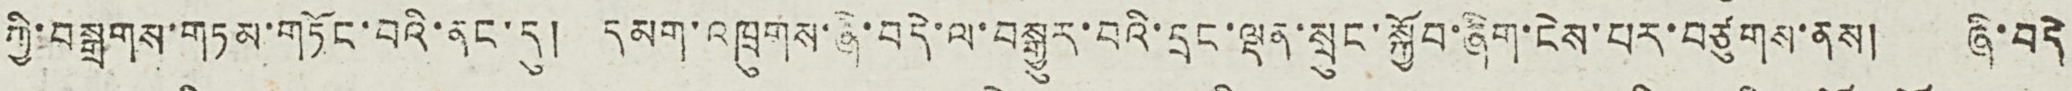ཀྱི་བསྒྲགས་གཏམ་གཏོང་བའི་ནང་དུ། དམག་འཁྲུགས་ཞེ་བདེ་ལ་བསྒྱུར་བའི་དྲང་ལྡན་སྲུང་སྐྱོབ་ཞིག་ངེས་པར་བཙུགས་ནས། ཞི་བདེ
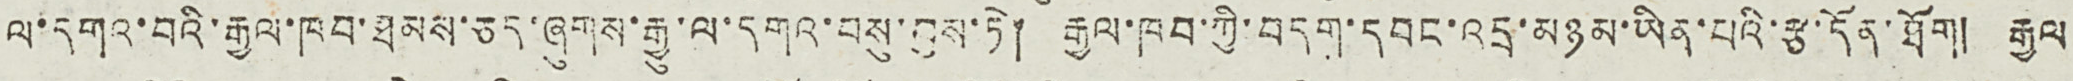ལ་དགའ་བའི་རྒྱལ་ཁབ་ཐམས་ཅད་ཞུགས་རྒྱུ་ལ་དགའ་བསུ་བྱས་ཏེ། རྒྱལ་ཁབ་ཀྱི་བདག་དབང་འདྲ་མཉམ་ཡིན་པའི་རྩ་དོན་ཐོག། རྒྱལ
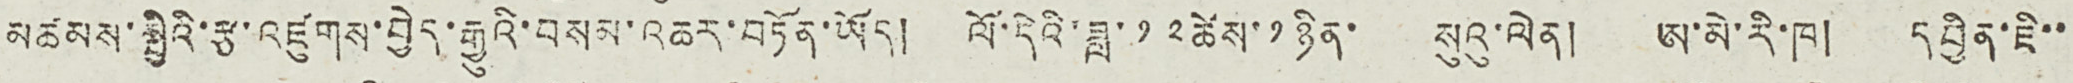མཚམས་སྤྱིའི་རྩ་འཛུགས་བྱེད་རྒྱུའི་བསམ་འཆར་བཏོན་ཡོད། ལོ་དེའི་ཟླ་ ༡༢ ཚེས་ ༡ ཉིན་ སུའུ་ལེན། ཨ་མེ་རི་ཁ། དབྱིན་ཇི་་
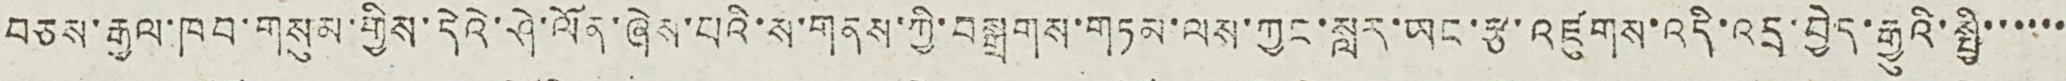བཅས་རྒྱལ་ཁབ་གསུམ་གྱིས་དེའི་ཤེ་ལོན་ཞེས་པའི་ས་གནས་ཀྱི་བསྒྲགས་གཏམ་ལས་ཀྱང་སླར་ཡང་རྩ་འཛུགས་འདི་འདྲ་བྱེད་རྒྱུའི་སྤྱི་་་་་་
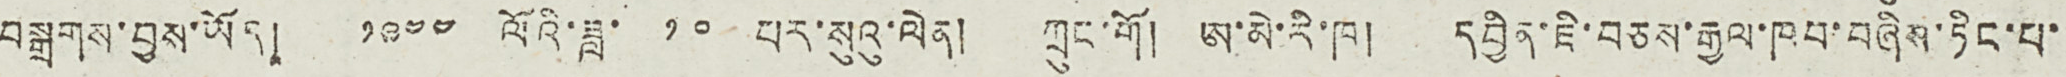བསྒྲགས་བྱས་ཡོད། ༡༩༤༤ ལོའི་ཟླ་ ༡༠ པར་སུའུ་ལེན། ཀྲུང་གོ། ཨ་མེ་རི་ཁ། དབྱིན་ཇི་བཅས་རྒྱལ་ཁབ་བཞིས་ཏིང་པ་
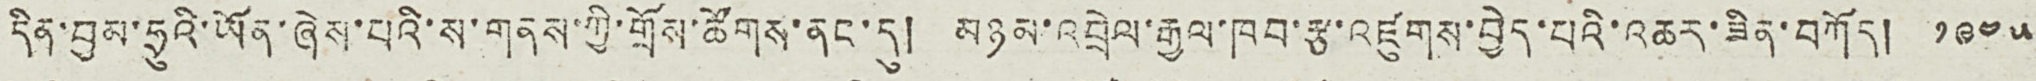དིན་བྱམ་ཧྲུའི་ཡོན་ཞེས་པའི་ས་གནས་ཀྱི་གྲོས་ཚོགས་ནང་དུ། མཉམ་འབྲེལ་རྒྱལ་ཁབ་རྩ་འཛུགས་བྱེད་པའི་འཆར་ཟིན་བཀོད། ༡༩༤༥
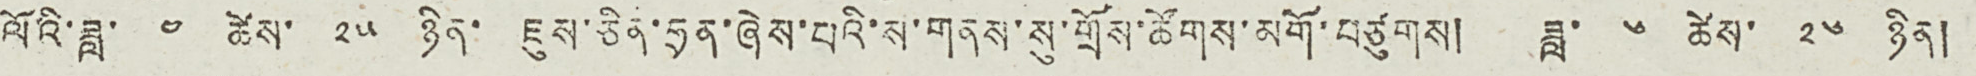ལོའི་ཟླ་ ༤ ཚེས་ ༢༥ ཉིན་ ཇུས་ཅིན་ཧྲན་ཞེས་པའི་ས་གནས་སུ་གྲོས་ཚོགས་མགོ་བཙུགས། ཟླ་ ༦ ཚེས་ ༢༦ ཉིན།
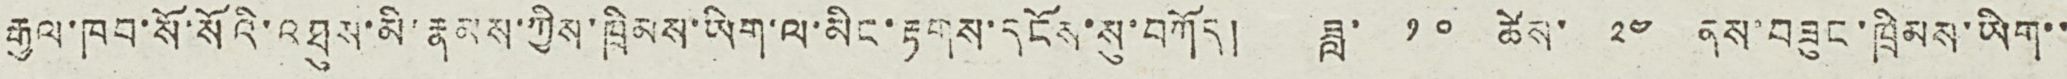རྒྱལ་ཁབ་སོ་སོའི་འཐུས་མི་རྣམས་ཀྱིས་ཁྲིམས་ཡིག་ལ་མིང་རྟགས་དངོས་སུ་བཀོད། ཟླ་ ༡༠ ཚེས་ ༢༤ ནས་བཟུང་ཁྲིམས་ཡིག་་
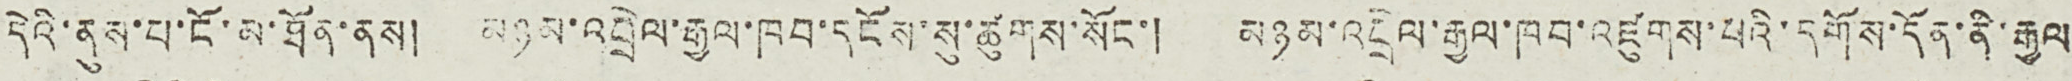དེའི་ནུས་པ་ངོ་མ་ཐོན་ནས། མཉམ་འབྲེལ་རྒྱལ་ཁབ་དངོས་སུ་ཚུགས་སོང་། མཉམ་འབྲེལ་རྒྱལ་ཁབ་འཛུགས་པའི་དགོས་དོན་ནི་རྒྱལ
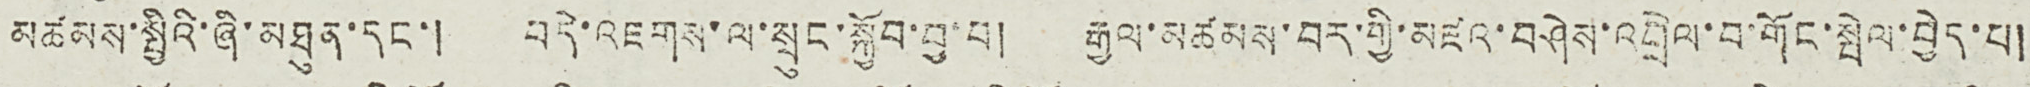མཚམས་སྤྱིའི་ཞི་མཐུན་དང་། བདེ་འཇགས་ལ་སྲུང་སྐྱོབ་བྱ་བ། རྒྱལ་མཚམས་བར་གྱི་མཛའ་བཤེས་འབྲེལ་བ་གོང་སྤེལ་བྱེད་པ།
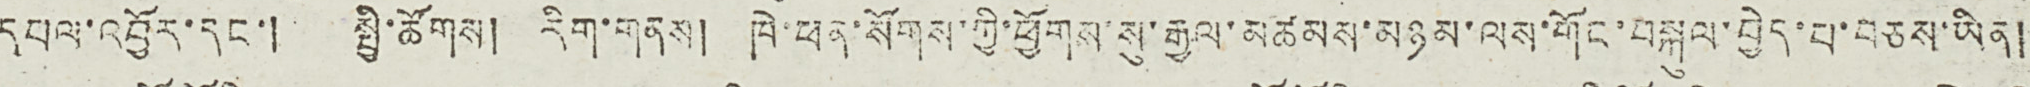དཔལ་འབྱོར་དང་། སྤྱི་ཚོགས། རིག་གནས། ཁེ་ཕན་སོགས་ཀྱི་ཕྱོགས་སུ་རྒྱལ་མཚམས་མཉམ་ལས་གོང་བསྐུལ་བྱེད་པ་བཅས་ཡིན།
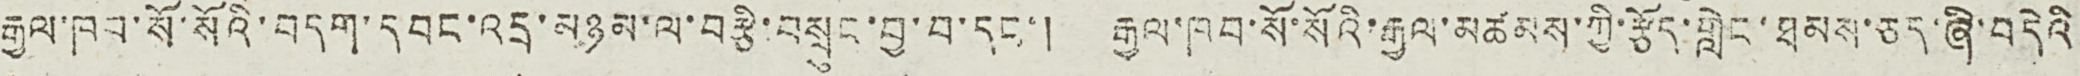རྒྱལ་ཁབ་སོ་སོའི་བདག་དབང་འདྲ་མཉམ་ལ་བརྩི་བསྲུང་བྱ་བ་དང་། རྒྱལ་ཁབ་སོ་སོའི་རྒྱལ་མཚམས་ཀྱི་རྩོད་གླེང་ཐམས་ཅད་ཞི་བདེའི
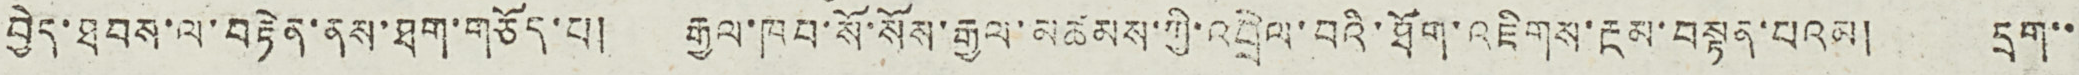བྱེད་ཐབས་ལ་བརྟེན་ནས་ཐག་གཅོད་པ། རྒྱལ་ཁབ་སོ་སོས་རྒྱལ་མཚམས་ཀྱི་འབྲེལ་བའི་ཐོག་འཇིགས་རྔམ་བསྟན་པའམ། དྲག་་
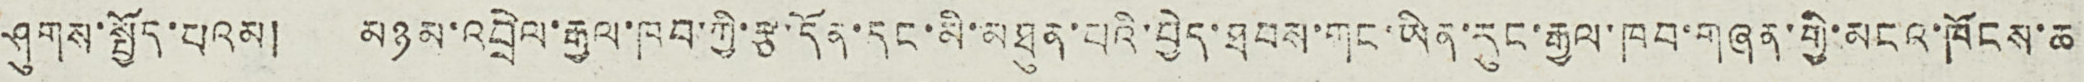ཤུགས་སྤྱོད་པའམ། མཉམ་འབྲེལ་རྒྱལ་ཁབ་ཀྱི་རྩ་དོན་དང་མི་མཐུན་པའི་བྱེད་ཐབས་གང་ཡིན་རུང་རྒྱལ་ཁབ་གཞན་གྱི་མངའ་ཁོངས་ཆ
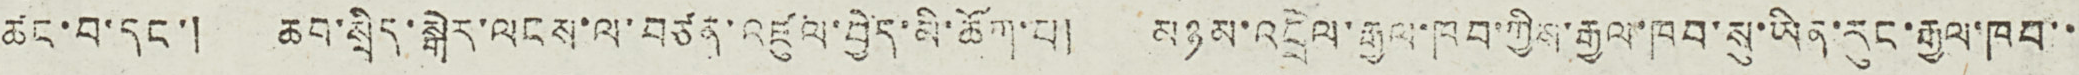ཚང་བ་དང་། ཆབ་སྲིད་སྒེར་ལངས་ལ་བཙན་འཛུལ་བྱེད་མི་ཆོག་པ། མཉམ་འབྲེལ་རྒྱལ་ཁབ་ཀྱིས་རྒྱལ་ཁབ་སུ་ཡིན་རུང་རྒྱལ་ཁབ་་
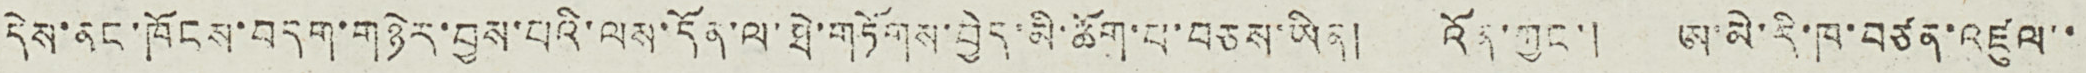དེས་ནང་ཁོངས་བདག་གཉེར་བྱས་པའི་ལས་དོན་ལ་ཐེ་གཏོགས་བྱེད་མི་ཆོག་པ་བཅས་ཡིན། འོན་ཀྱང་། ཨ་མེ་རི་ཁ་བཙན་འཛུལ་་
